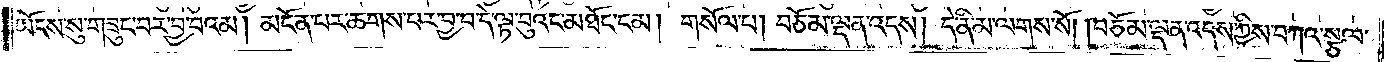ཡོངས་སུ་གཟུང་བར་བྱ་བའམ། མངོན་པར་ཆགས་པར་བྱ་བ་དེ་ལྟ་བུའང་མཐོང་ངམ། གསོལ་པ། བཅོམ་ལྡན་འདས། དེ་ནི་མ་ལགས་སོ། །བཅོམ་ལྡན་འདས་ཀྱིས་བཀའ་སྩལ་
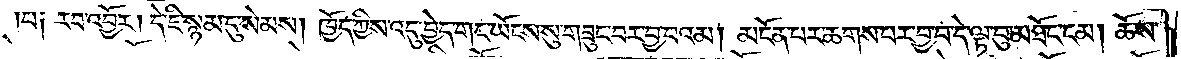པ༑ རབ་འབྱོར། དེ་ཇི་སྙམ་དུ་སེམས། ཁྱོད་ཀྱིས་འདུ་བྱེད་གང་ཡོངས་སུ་གཟུང་བར་བྱ་བའམ། མངོན་པར་ཆགས་པར་བྱ་བ་དེ་ལྟ་བུ་མཐོང་ངམ། ཆོས་
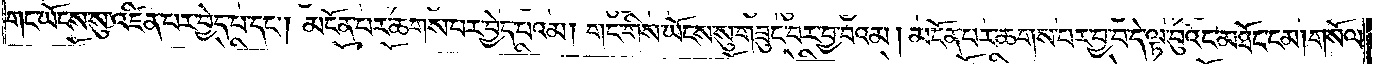གང་ཡོངས་སུ་འཛིན་པར་བྱེད་པ་དང༌། མངོན་པར་ཆགས་པར་བྱེད་པའམ། གང་གིས་ཡོངས་སུ་གཟུང་བར་བྱ་བའམ། མངོན་པར་ཆགས་པར་བྱ་བ་དེ་ལྟ་བུའང་མཐོང་ངམ། གསོལ་
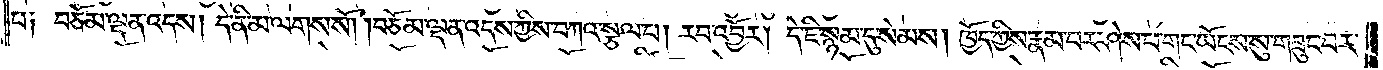པ༑ བཅོམ་ལྡན་འདས། དེ་ནི་མ་ལགས་སོ། །བཅོམ་ལྡན་འདས་ཀྱིས་བཀའ་སྩལ་པ། རབ་འབྱོར། དེ་ཇི་སྙམ་དུ་སེམས། ཁྱོད་ཀྱི་རྣམ་པར་ཤེས་པ་གང་ཡོངས་སུ་གཟུང་བར་
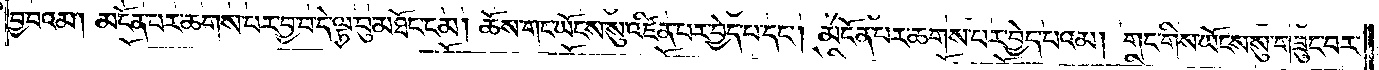བྱ་བའམ། མངོན་པར་ཆགས་པར་བྱ་བ་དེ་ལྟ་བུ་མཐོང་ངམ། ཆོས་གང་ཡོངས་སུ་འཛིན་པར་བྱེད་པ་དང༌། མངོན་པར་ཆགས་པར་བྱེད་པའམ། གང་གིས་ཡོངས་སུ་གཟུང་བར་
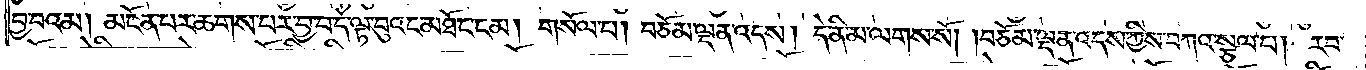བྱ་བའམ། མངོན་པར་ཆགས་པར་བྱ་བ་དེ་ལྟ་བུའང་མཐོང་ངམ། གསོལ་པ། བཅོམ་ལྡན་འདས། དེ་ནི་མ་ལགས་སོ། །བཅོམ་ལྡན་འདས་ཀྱིས་བཀའ་སྩལ་པ། རབ་
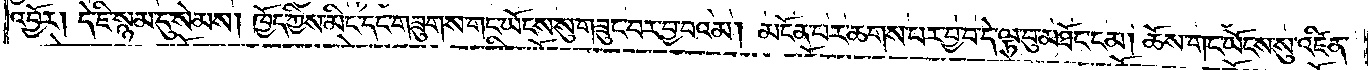འབྱོར། དེ་ཇི་སྙམ་དུ་སེམས། ཁྱོད་ཀྱི་མིང་དང་གཟུགས་གང་ཡོངས་སུ་གཟུང་བར་བྱ་བའམ། མངོན་པར་ཆགས་པར་བྱ་བ་དེ་ལྟ་བུ་མཐོང་ངམ། ཆོས་གང་ཡོངས་སུ་འཛིན་
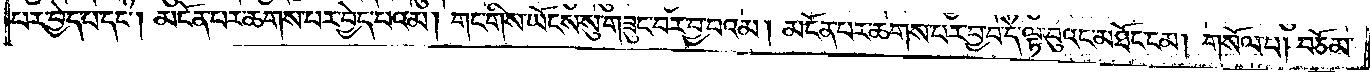པར་བྱེད་པ་དང༌། མངོན་པར་ཆགས་པར་བྱེད་པའམ། གང་གིས་ཡོངས་སུ་གཟུང་བར་བྱ་བའམ། མངོན་པར་ཆགས་པར་བྱ་བ་དེ་ལྟ་བུའང་མཐོང་ངམ། གསོལ་པ། བཅོམ་
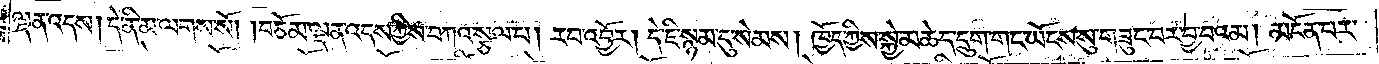ལྡན་འདས། དེ་ནི་མ་ལགས་སོ། །བཅོམ་ལྡན་འདས་ཀྱིས་བཀའ་སྩལ་པ། རབ་འབྱོར། དེ་ཇི་སྙམ་དུ་སེམས། ཁྱོད་ཀྱིས་སྐྱེ་མཆེད་དྲུག་གང་ཡོངས་སུ་གཟུང་བར་བྱ་བའམ། མངོན་པར་
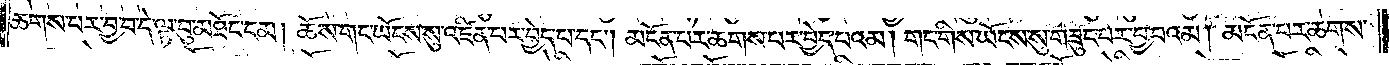ཆགས་པར་བྱ་བ་དེ་ལྟ་བུ་མཐོང་ངམ། ཆོས་གང་ཡོངས་སུ་འཛིན་པར་བྱེད་པ་དང༌། མངོན་པར་ཆགས་པར་བྱེད་པའམ། གང་གིས་ཡོངས་སུ་གཟུང་བར་བྱ་བའམ། མངོན་པར་ཆགས་
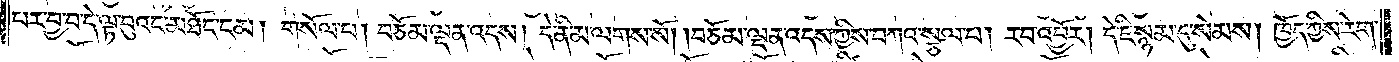པར་བྱ་བ་དེ་ལྟ་བུའང་མཐོང་ངམ། གསོལ་པ། བཅོམ་ལྡན་འདས། དེ་ནི་མ་ལགས་སོ། །བཅོམ་ལྡན་འདས་ཀྱིས་བཀའ་སྩལ་པ། རབ་འབྱོར། དེ་ཇི་སྙམ་དུ་སེམས། ཁྱོད་ཀྱིས་རེག་
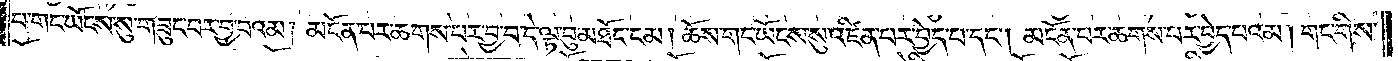པ་གང་ཡོངས་སུ་གཟུང་བར་བྱ་བའམ། མངོན་པར་ཆགས་པར་བྱ་བ་དེ་ལྟ་བུ་མཐོང་ངམ། །ཆོས་གང་ཡོངས་སུ་འཛིན་པར་བྱེད་པ་དང༌། མངོན་པར་ཆགས་པར་བྱེད་པའམ། གང་གིས་
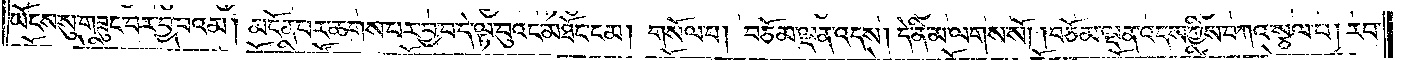ཡོངས་སུ་གཟུང་བར་བྱ་བའམ། མངོན་པར་ཆགས་པར་བྱ་བ་དེ་ལྟ་བུའང་མཐོང་ངམ། གསོལ་པ། བཅོམ་ལྡན་འདས། དེ་ནི་མ་ལགས་སོ། །བཅོམ་ལྡན་འདས་ཀྱིས་བཀའ་སྩལ་པ། རབ་
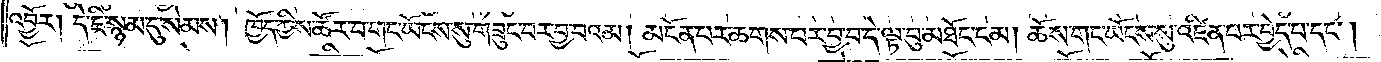འབྱོར། དེ་ཇི་སྙམ་དུ་སེམས། ཁྱོད་ཀྱིས་ཚོར་བ་གང་ཡོངས་སུ་གཟུང་བར་བྱ་བའམ། མངོན་པར་ཆགས་པར་བྱ་བ་དེ་ལྟ་བུ་མཐོང་ངམ། ཆོས་གང་ཡོངས་སུ་འཛིན་པར་བྱེད་པ་དང༌།
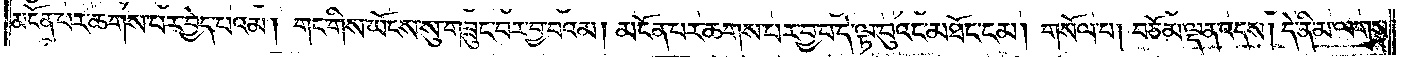མངོན་པར་ཆགས་པར་བྱེད་པའམ། གང་གིས་ཡོངས་སུ་གཟུང་བར་བྱ་བའམ། མངོན་པར་ཆགས་པར་བྱ་བ་དེ་ལྟ་བུའང་མཐོང་ངམ། གསོལ་པ། བཅོམ་ལྡན་འདས། དེ་ནི་མ་ལགས་
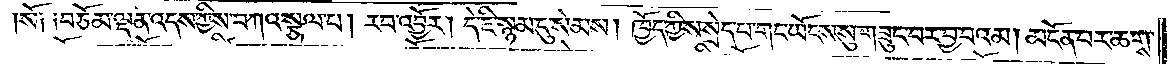སོ། །བཅོམ་ལྡན་འདས་ཀྱིས་བཀའ་སྩལ་པ། རབ་འབྱོར། དེ་ཇི་སྙམ་དུ་སེམས། ཁྱོད་ཀྱིས་སྲེད་པ་གང་ཡོངས་སུ་གཟུང་བར་བྱ་བའམ། མངོན་པར་ཆགས་
